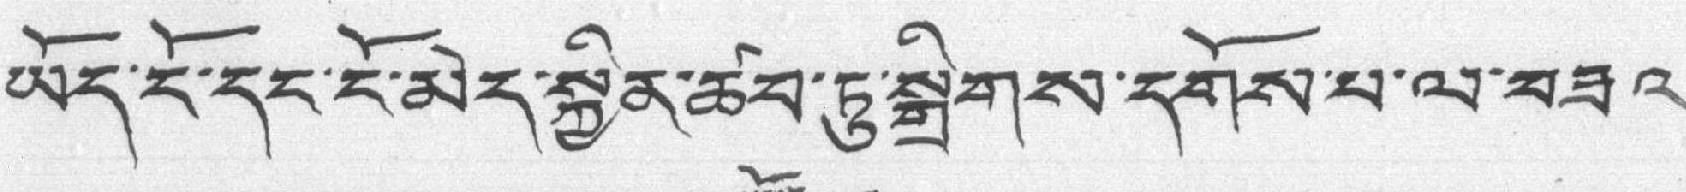ཡོད་ངོ་དང་ངོ་མེད་སྐྱིན་ཚབ་ཏུ་སྒྲིགས་དགོས་པ་ལ་བཟའ་
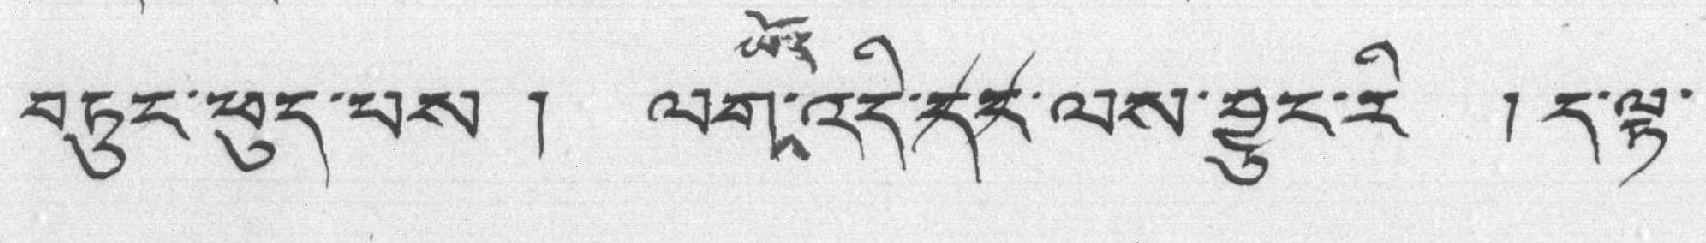བཏུང་ཕུད་པས ། ལག་ཡོད་འདི་དང་ལས་བྱུང་རི ། ད་ལྟ་
